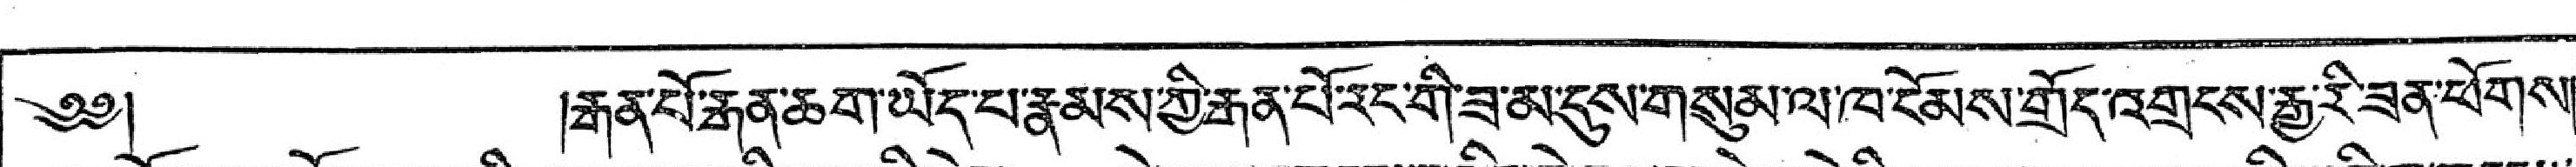༄༅།  །རྒན་པོ་རྒན་ཆག་ཡོད་པ་རྣམས་གྱི་རྒན་པོ་རང་གི་ཟ་མ་དུས་གསུམ་ལ་ཁ་ངོམས་གྲོད་འགྲངས་རྒྱུ་རི་ཟན་ཕོགས།
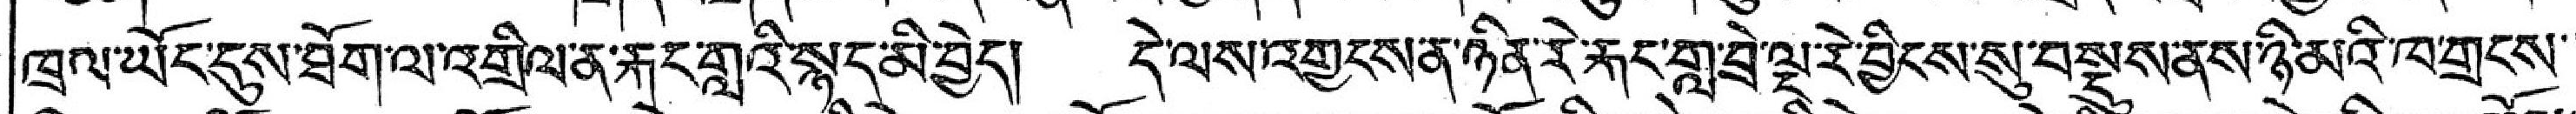ཁྲལ་ཡོང་དུས་ཐོག་ལ་འགྲིལ་ན་རྐང་གླའི་སྙད་མི་བྱེད། དེ་ལས་འགྱངས་ན་ཉིན་རེ་རྐང་གླ་བྲེ་ལྔ་རེ་བྱིངས་སུ་བསྡུས་ནས་ཉི་མའི་ཁ་གྲངས་་་
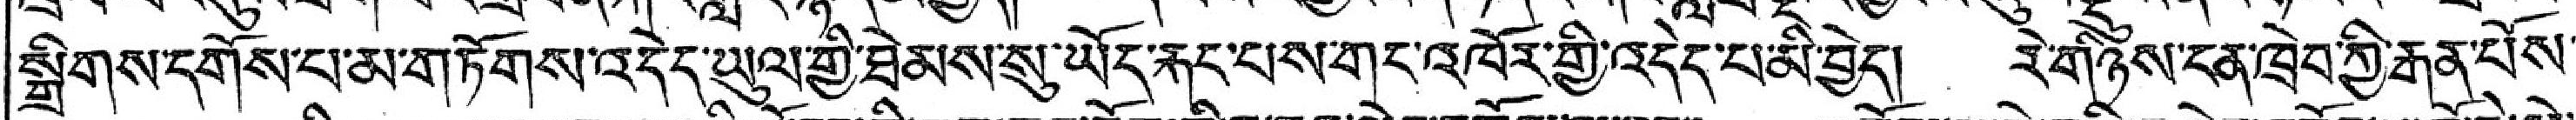སྒྲིགས་དགོས་པ་མ་གཏོགས་འདེད་ཡུལ་གྱི་ཐེམས་སུ་ཡོད་རྐང་པས་གང་འཁོར་གྱི་འདེད་པ་མི་བྱེད། རེ་ག་ཉིས་ངན་ཁྲེབ་ཀྱི་རྒན་པོས་་
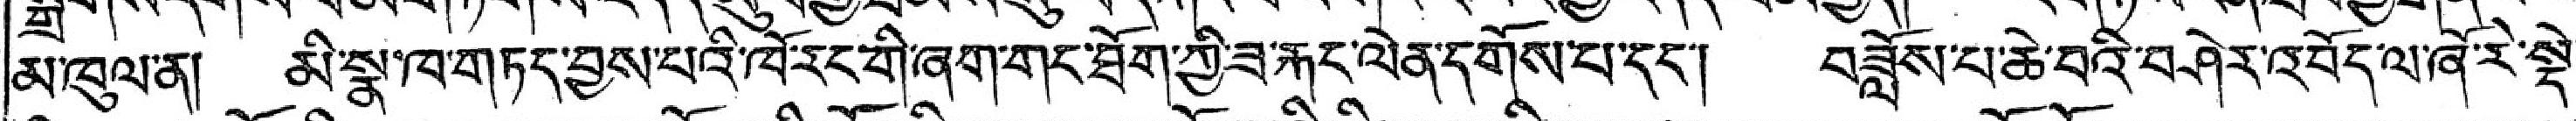མ་ཁུལ་ན། མི་སྣ་ཁ་གཏད་བྱས་པའི་ཁོ་རང་གི་ཞག་གང་ཐོག་ཀྱི་ཟ་རྐང་ལེན་དགོས་པ་དང་། བཟློས་པ་ཆེ་བའི་བཤེར་འབོད་ལ་ཞོ་རེ་སྡེ་
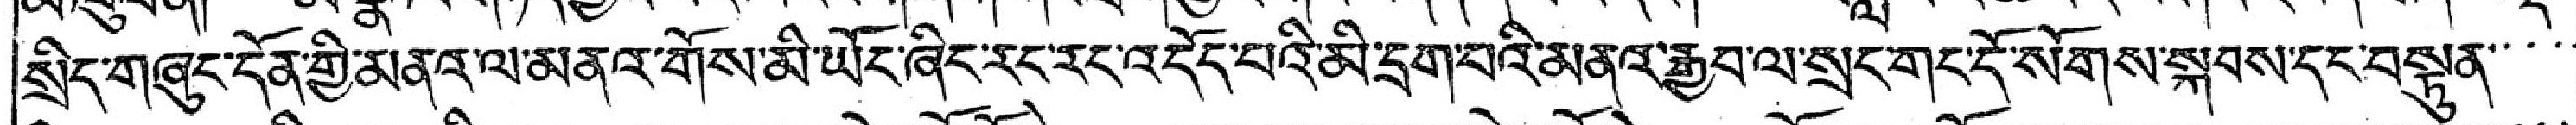སྲིད་གཞུང་དོན་གྱི་མནའ་ལ་མནའ་གོས་མི་ཡོང་ཞིང་རང་རང་འདོད་པའི་མི་དྲག་པའི་མནའ་རྒྱབ་ལ་སྲང་གང་དོ་སོགས་སྐབས་དང་བསྟུན་་་་་
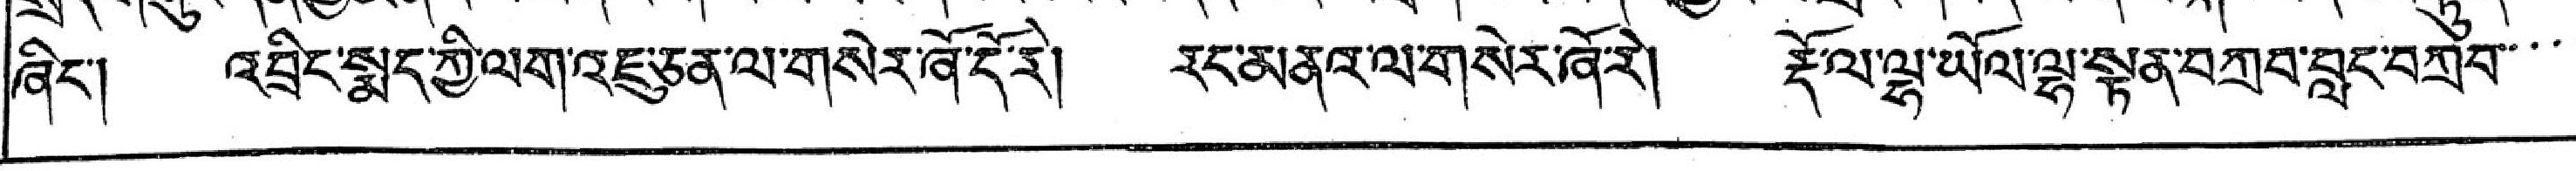ཞིང་། འབྲིང་སྨད་ཀྱི་ལག་འཇུ་ཅན་ལ་གསེར་ཞོ་དོ་རེ། རང་མནའ་ལ་གསེར་ཞོ་རེ། རྡོ་ལ་ལྷ་ཡོལ་ལྷ་སྟན་བཀྲབ་བླང་བཀྲབ་་་་
